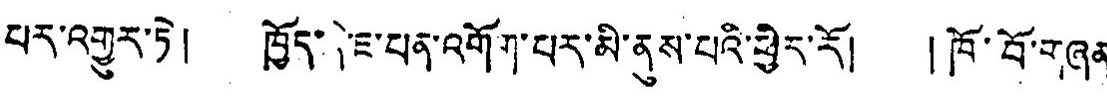པར་འགྱུར་ཏེ། ཁྱོད་དེ་ཇ་པན་འགོག་པར་མི་ནུས་པའི་ཕྱིར་རོ། །ཁོ་བོ་གཞན་
